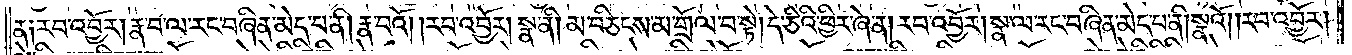ན༑ རབ་འབྱོར། རྣ་བ་ལ་རང་བཞིན་མེད་པ་ནི། རྣ་བའོ། །རབ་འབྱོར། སྣ་ནི། མ་བཅིངས་མ་གྲོལ་བ་སྟེ། དེ་ཅིའི་ཕྱིར་ཞེ་ན། རབ་འབྱོར། སྣ་ལ་རང་བཞིན་མེད་པ་ནི། སྣའོ། །རབ་འབྱོར།
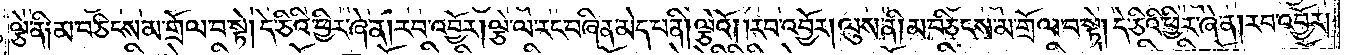ལྕེ་ནི༑ མ་བཅིངས་མ་གྲོལ་བ་སྟེ། དེ་ཅིའི་ཕྱིར་ཞེ་ན། རབ་འབྱོར། ལྕེ་ལ་རང་བཞིན་མེད་པ་ནི། ལྕེའོ། །རབ་འབྱོར། ལུས་ནི། མ་བཅིངས་མ་གྲོལ་བ་སྟེ། དེ་ཅིའི་ཕྱིར་ཞེ་ན། རབ་འབྱོར།
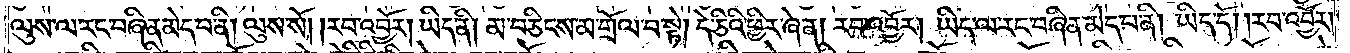ལུས་ལ་རང་བཞིན་མེད་པ་ནི། ལུས་སོ། །རབ་འབྱོར། ཡིད་ནི། མ་བཅིངས་མ་གྲོལ་བ་སྟེ། དེ་ཅིའི་ཕྱིར་ཞེ་ན། རབ་འབྱོར། ཡིད་ལ་རང་བཞིན་མེད་པ་ནི། ཡིད་དོ། །རབ་འབྱོར།
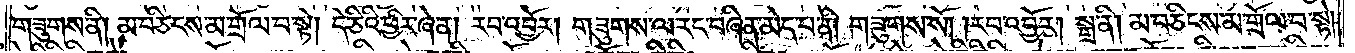གཟུགས་ནི། མ་བཅིངས་མ་གྲོལ་བ་སྟེ། དེ་ཅིའི་ཕྱིར་ཞེ་ན། རབ་འབྱོར། གཟུགས་ལ་རང་བཞིན་མེད་པ་ནི། གཟུགས་སོ། །རབ་འབྱོར། སྒྲ་ནི། མ་བཅིངས་མ་གྲོལ་བ་སྟེ།
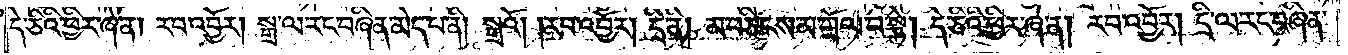དེ་ཅིའི་ཕྱིར་ཞེ་ན། རབ་འབྱོར། སྒྲ་ལ་རང་བཞིན་མེད་པ་ནི། སྒྲའོ། །རབ་འབྱོར། དྲི་ནི། མ་བཅིངས་མ་གྲོལ་བ་སྟེ། དེ་ཅིའི་ཕྱིར་ཞེ་ན། རབ་འབྱོར། དྲི་ལ་རང་བཞིན་
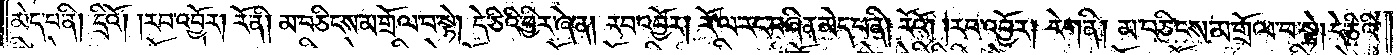མེད་པ་ནི། དྲིའོ། །རབ་འབྱོར། རོ་ནི། མ་བཅིངས་མ་གྲོལ་བ་སྟེ། དེ་ཅིའི་ཕྱིར་ཞེ་ན། རབ་འབྱོར། རོ་ལ་རང་བཞིན་མེད་པ་ནི། རོའོ། །རབ་འབྱོར། རེག་ནི། མ་བཅིངས་མ་གྲོལ་བ་སྟེ། དེ་ཅིའི་
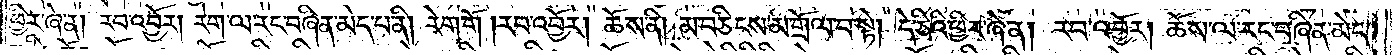ཕྱིར་ཞེ་ན། རབ་འབྱོར། རེག་ལ་རང་བཞིན་མེད་པ་ནི། རེག་གོ །རབ་འབྱོར། ཆོས་ནི། མ་བཅིངས་མ་གྲོལ་བ་སྟེ། དེ་ཅིའི་ཕྱིར་ཞེ་ན། རབ་འབྱོར། ཆོས་ལ་རང་བཞིན་མེད་
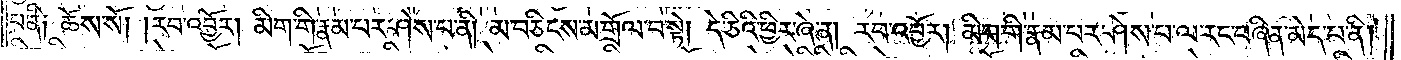པ་ནི༑ ཆོས་སོ། །རབ་འབྱོར། །མིག་གི་རྣམ་པར་ཤེས་པ་ནི། མ་བཅིངས་མ་གྲོལ་བ་སྟེ། དེ་ཅིའི་ཕྱིར་ཞེ་ན། རབ་འབྱོར། མིག་གི་རྣམ་པར་ཤེས་པ་ལ་རང་བཞིན་མེད་པ་ནི།
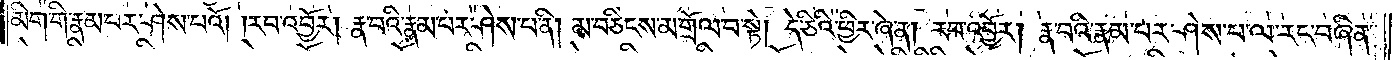མིག་གི་རྣམ་པར་ཤེས་པའོ། །རབ་འབྱོར། རྣ་བའི་རྣམ་པར་ཤེས་པ་ནི། མ་བཅིངས་མ་གྲོལ་བ་སྟེ། དེ་ཅིའི་ཕྱིར་ཞེ་ན། རབ་འབྱོར། རྣ་བའི་རྣམ་པར་ཤེས་པ་ལ་རང་བཞིན་
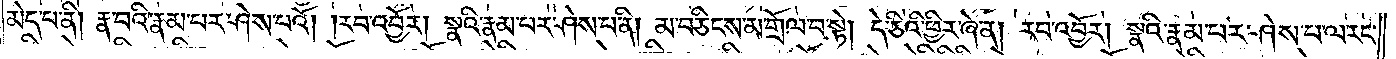མེད་པ་ནི། རྣ་བའི་རྣམ་པར་ཤེས་པའོ། །རབ་འབྱོར། སྣའི་རྣམ་པར་ཤེས་པ་ནི། མ་བཅིངས་མ་གྲོལ་བ་སྟེ། དེ་ཅིའི་ཕྱིར་ཞེ་ན། རབ་འབྱོར། སྣའི་རྣམ་པར་ཤེས་པ་ལ་རང་
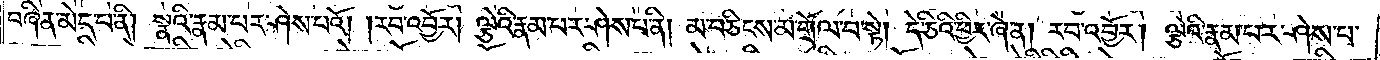བཞིན་མེད་པ་ནི། སྣའི་རྣམ་པར་ཤེས་པའོ། །རབ་འབྱོར། ལྕེའི་རྣམ་པར་ཤེས་པ་ནི། མ་བཅིངས་མ་གྲོལ་བ་སྟེ། དེ་ཅིའི་ཕྱིར་ཞེ་ན། རབ་འབྱོར། ལྕེའི་རྣམ་པར་ཤེས་པ་
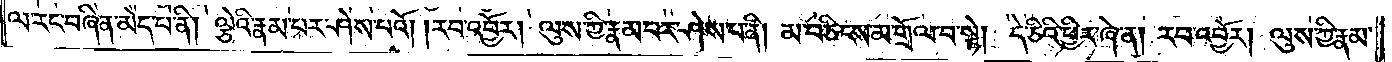ལ་རང་བཞིན་མེད་པ་ནི། ལྕེའི་རྣམ་པར་ཤེས་པའོ། །རབ་འབྱོར། ལུས་ཀྱི་རྣམ་པར་ཤེས་པ་ནི། མ་བཅིངས་མ་གྲོལ་བ་སྟེ། དེ་ཅིའི་ཕྱིར་ཞེ་ན། རབ་འབྱོར། ལུས་ཀྱི་རྣམ་
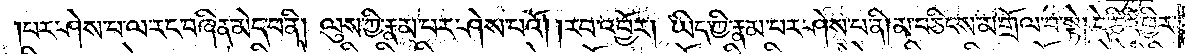པར་ཤེས་པ་ལ་རང་བཞིན་མེད་པ་ནི། ལུས་ཀྱི་རྣམ་པར་ཤེས་པའོ། །རབ་འབྱོར། ཡིད་ཀྱི་རྣམ་པར་ཤེས་པ་ནི། མ་བཅིངས་མ་གྲོལ་བ་སྟེ། དེ་ཅིའི་ཕྱིར་
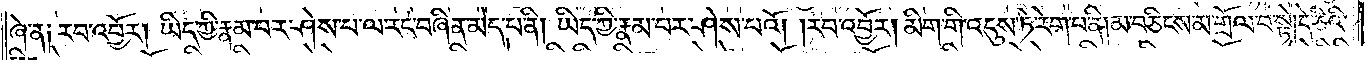ཞེ་ན༑ རབ་འབྱོར། ཡིད་ཀྱི་རྣམ་པར་ཤེས་པ་ལ་རང་བཞིན་མེད་པ་ནི། ཡིད་ཀྱི་རྣམ་པར་ཤེས་པའོ། །རབ་འབྱོར། མིག་གི་འདུས་ཏེ་རེག་པ་ནི། མ་བཅིངས་མ་གྲོལ་བ་སྟེ། དེ་ཅིའི་
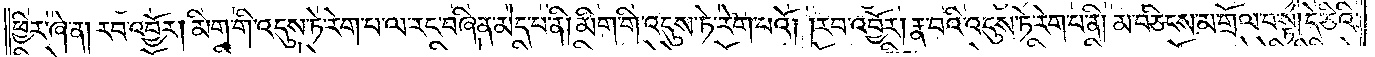ཕྱིར་ཞེ་ན། རབ་འབྱོར། མིག་གི་འདུས་ཏེ་རེག་པ་ལ་རང་བཞིན་མེད་པ་ནི། མིག་གི་འདུས་ཏེ་རེག་པའོ། །རབ་འབྱོར། རྣ་བའི་འདུས་ཏེ་རེག་པ་ནི། མ་བཅིངས་མ་གྲོལ་བ་སྟེ། དེ་ཅིའི་
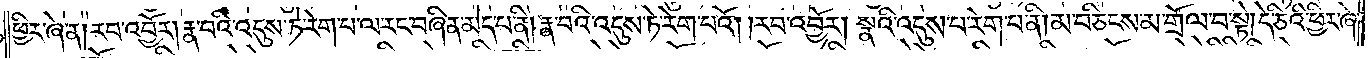ཕྱིར་ཞེ་ན། རབ་འབྱོར། རྣ་བའི་འདུས་ཏེ་རེག་པ་ལ་རང་བཞིན་མེད་པ་ནི། རྣ་བའི་འདུས་ཏེ་རེག་པའོ། །རབ་འབྱོར། སྣའི་འདུས་ཏེ་རེག་པ་ནི། མ་བཅིངས་མ་གྲོལ་བ་སྟེ། དེ་ཅིའི་ཕྱིར་ཞེ་
